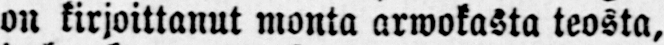on kirjoittanut monta arwokasta teosta,
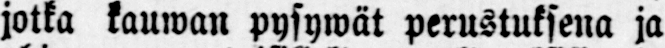jotka kauwan pysywät perustuksena ja
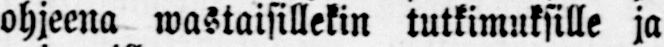ohjeena wastaisillekin tutkimuksille ja
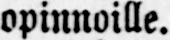opinnoille.
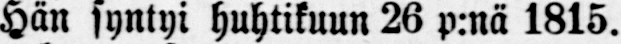Hän syntyi huhtikuun 26 p:nä 1815.
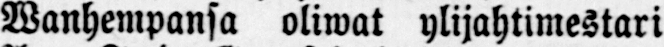Wanhempansa oliwat ylijahtimestari
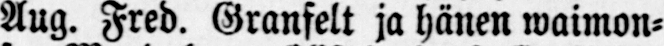Aug. Fred. Granfelt ja hänen waimon-
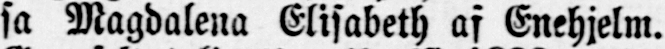sa Magdalena Elisabeth af Enehjelm.
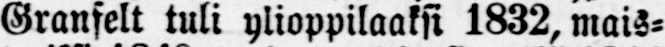Granfelt tuli ylioppilaaksi 1832, mais-
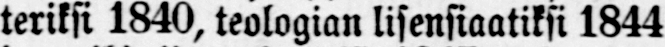teriksi 1840, teologian lisensiaatiksi 1844
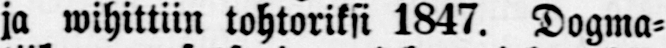ja wihittiin tohtoriksi 1847. Dogma-
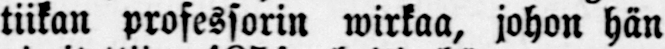tiikan professorin wirkaa, johon hän
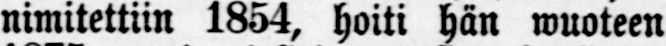nimitettiin 1854, hoiti hän wuoteen
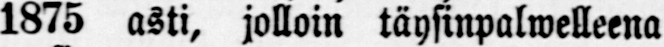1875 asti, jolloin täysinpalwelleena
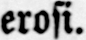erosi.
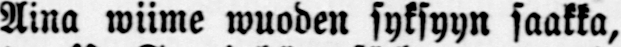Aina wiime wuoden syksyyn saakka,
